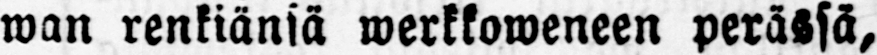wan renkiänsä werkkoweneen perässä,
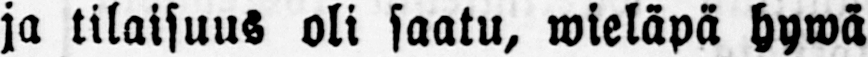ja tilaisuus oli saatu, wieläpä hywä
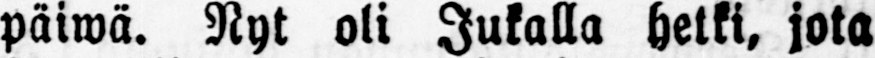päiwä. Nyt oli Jukalla hetki, jota
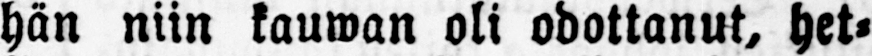hän niin kauwan oli odottanut, het-
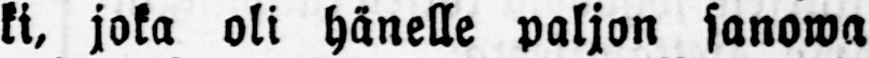ki, joka oli hänelle paljon sanowa
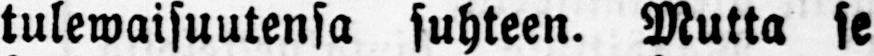tulewaisuutensa suhteen. Mutta se
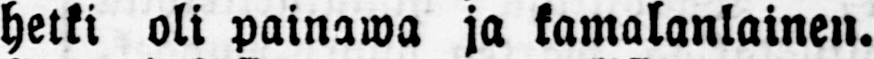hetki oli painawa ja kamalanlainen.
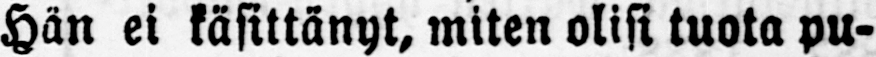Hän ei käsittänyt, miten olisi tuota pu-
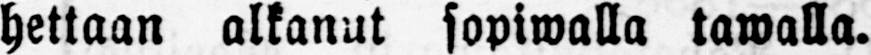hettaan alkanut sopiwalla tawalla.
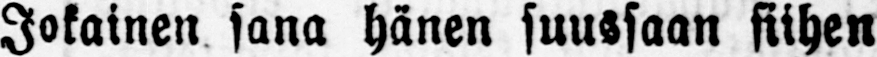Jokainen sana hänen suussaan siihen
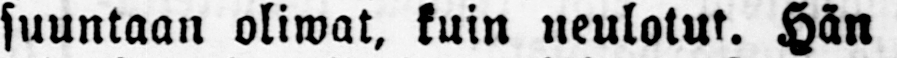suuntaan oliwat, kuin neulotut. Hän
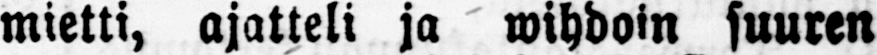mietti, ajatteli ja wihdoin suuren
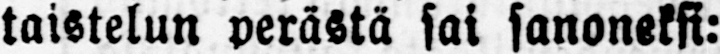taistelun perästä sai sanoneksi:
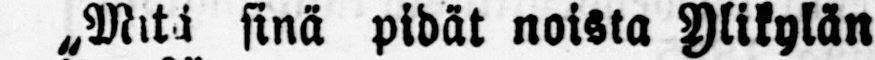„Mitä„ sinä pidät noista Ylikylän
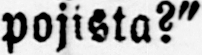pojista?"
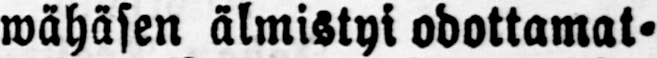wähäsen älmistyi odottamat-
